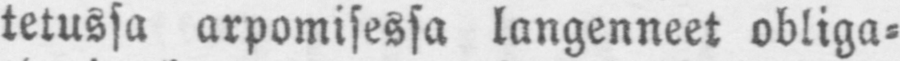tetussa arpomisessa langenneet obliga-
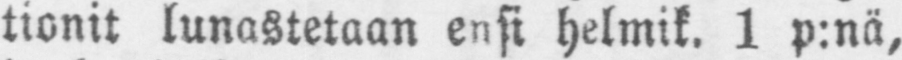tionit lunastetaan ensi helmik. 1 p:nä,
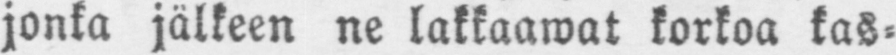jonka jälkeen ne lakkaawat korkoa kas-
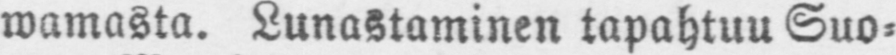wamasta. Lunastaminen tapahtuu Suo-
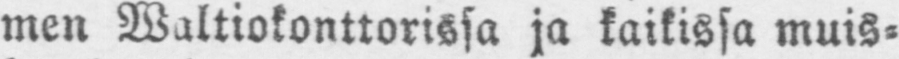men Waltiokontrorissa ja kaikissa muis-
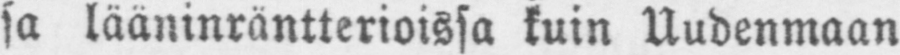sa lääninräntterioissa kuin Uudenmaan
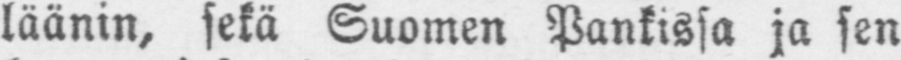läänin, sekä Suomen Pankissa ja sen
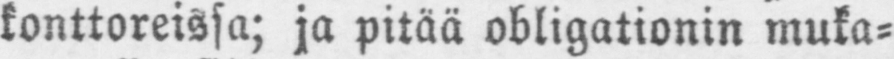konttoreissa; ja pitää obligationin muka-
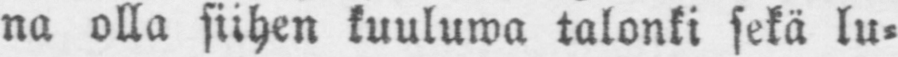na olla siihen kuuluwa talonki sekä lu-
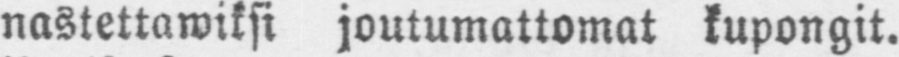nastettawiksi joutumattomat kupongit.
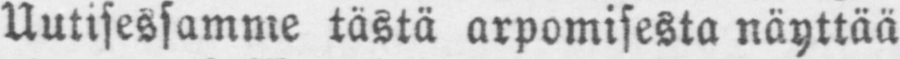Uutisessamme tästä arpomisesta näyttää
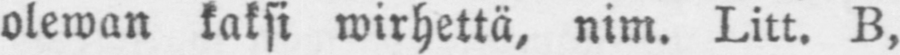olewan kaksi wirhettä, nim. Litt. B,
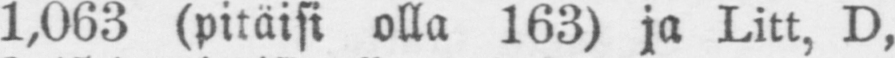1,063 (pitäisi olla 163) ja Litt, D,
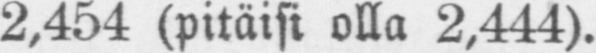2,454 (pitäisi olla 2,444).
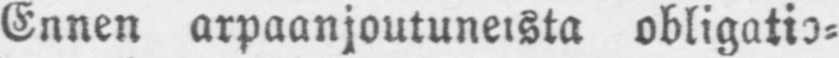Ennen arpaanjoutuneista obligatio-
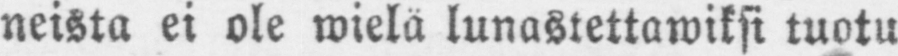neista ei ole wielä lunastettawiksi tuotu
